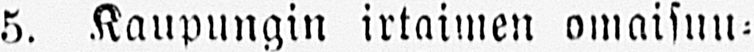5. Kaupungin irtaimen omaisuu-
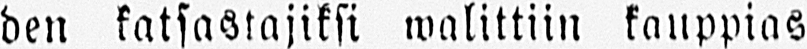den katsastajiksi walittiin kauppias
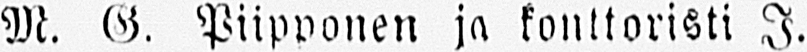M. G. Piipponen ja konttoristi J.
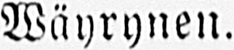Wäyrynen.
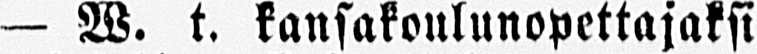— W. t. kansakoulunopettajaksi
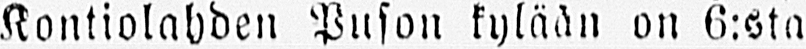Kontiolahden Puson kylään on 6:sta
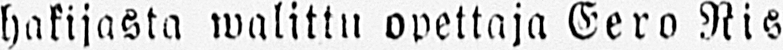hakijasta walittu opettaja Eero Ris-
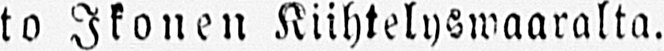to Ikonen Kiihtelyswaaralta.
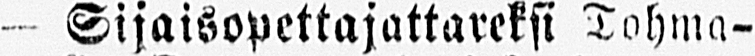— Sijaisopettajattareksi Tohma-
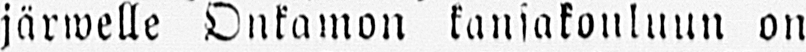järwelle Onkamon kansakouluun on
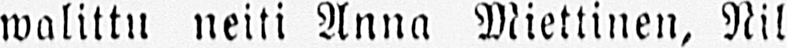walittu neiti Anna Miettinen, Nil-
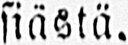siästä.
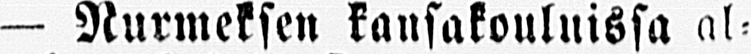— Nurmeksen kansakouluissa al-
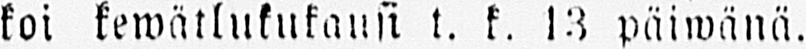koi kewätlukukausi t. k. 13 päiwänä.
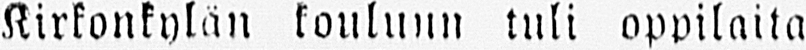Kirkonkylän koulunn tuli oppilaita
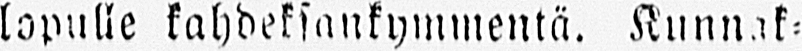lopulle kahdeksankymmentä. Kunnak-
